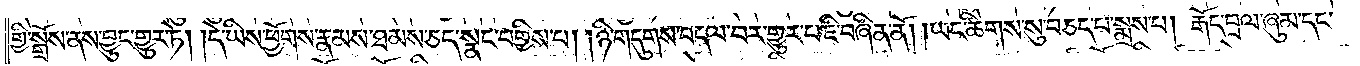གྱི་སྒྲོས་ནས་བྱུང་གྱུར་ཏེ། །དེ་ཡིས་ཕྱོགས་རྣམས་ཐམས་ཅད་སྣང་བགྱིས་པ། །ཉི་གདུགས་བདལ་བར་གྱུར་པ་ཇི་བཞིན་ནོ། །ཡང་ཚིགས་སུ་བཅད་པ་སྨྲས་པ། རྒོད་བྲལ་ཞུམ་དང་
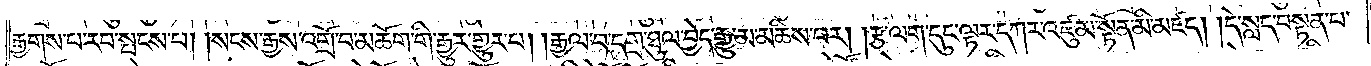རྒྱགས་པ་རབ་སྤངས་པ། །སངས་རྒྱས་འགྲོ་བ་མཆོག་གི་རྒྱུར་གྱུར་པ། །རྒྱལ་བ་དགྲ་ཐུལ་བྱེད་རྒྱུ་མ་མཆིས་པར། །རྩ་ལག་དུང་ལྟར་དཀར་འཛུམ་སྟོན་མི་མཛད། །དེ་སླད་བསྟན་པ་
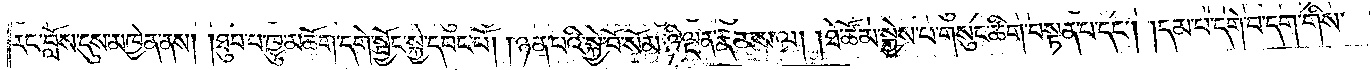རང་བློས་དུས་མཁྱེན་ནས། །ཐུབ་པ་ཁྱུ་མཆོག་དགེ་སྦྱོང་སྐྱེ་དབང་པོ། །ཉན་པའི་སྐྱེ་བོ་སོམ་ཉི་ལྡན་རྣམས་ལ། །ཐེ་ཚོམ་སྐྱེས་པ་གསུང་ཚིག་བསྟན་པ་དང༌། །དམ་པ་དགེ་བ་དག་གིས་
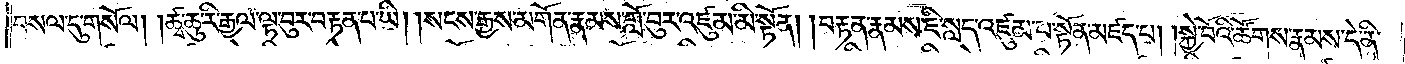བསལ་དུ་གསོལ། །ཚྭ་ཆུ་རི་རྒྱལ་ལྟ་བུར་བརྟན་པ་ཡི། །སངས་རྒྱས་མགོན་རྣམས་གློ་བུར་འཛུམ་མི་སྟོན། །བརྟན་རྣམས་ཇི་སླད་འཛུམ་པ་སྟོན་མཛད་པ། །སྐྱེ་བོའི་ཚོགས་རྣམས་དེ་ནི་
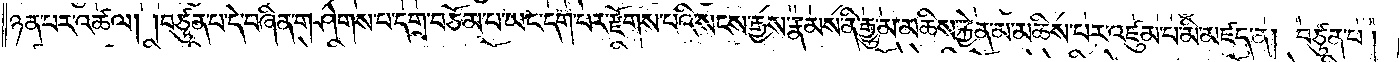ཉན་པར་འཚལ། །བཙུན་པ་དེ་བཞིན་གཤེགས་པ་དགྲ་བཅོམ་པ་ཡང་དག་པར་རྫོགས་པའི་སངས་རྒྱས་རྣམས་ནི་རྒྱུ་མ་མཆིས་རྐྱེན་མ་མཆིས་པར་འཛུམ་པ་མི་མཛད་ན། བཙུན་པ།
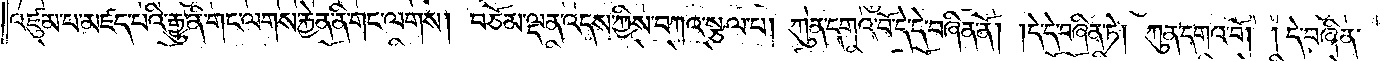འཛུམ་པ་མཛད་པའི་རྒྱུ་ནི་གང་ལགས་རྐྱེན་ནི་གང་ལགས། བཅོམ་ལྡན་འདས་ཀྱིས་བཀའ་སྩལ་པ། ཀུན་དགའ་བོ་དེ་དེ་བཞིན་ནོ། །དེ་དེ་བཞིན་ཏེ། ཀུན་དགའ་བོ།  །དེ་བཞིན་
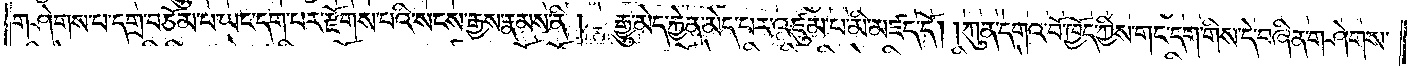གཤེགས་པ་དགྲ་བཅོམ་པ་ཡང་དག་པར་རྫོགས་པའི་སངས་རྒྱས་རྣམས་ནི།  རྒྱུ་མེད་རྐྱེན་མེད་པར་འཛུམ་པ་མི་མཛད་དོ། །ཀུན་དགའ་བོ་ཁྱོད་ཀྱིས་གང་དག་གིས་དེ་བཞིན་གཤེགས་
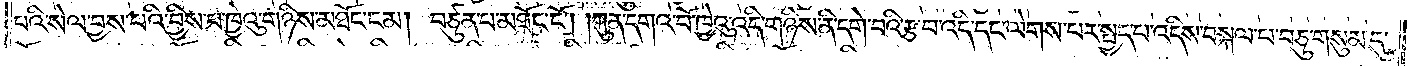པའི་སེལ་བྱས་པའི་བྱིས་པ་ཁྱེའུ་གཉིས་མཐོང་ངམ། བཙུན་པ་མཐོང་ངོ༌། །ཀུན་དགའ་བོ་ཁྱེའུ་འདི་གཉིས་ནི་དགེ་བའི་རྩ་བ་འདི་དང་ལེགས་པར་སྤྱད་པ་འདིས་བསྐལ་པ་བཅུ་གསུམ་དུ་
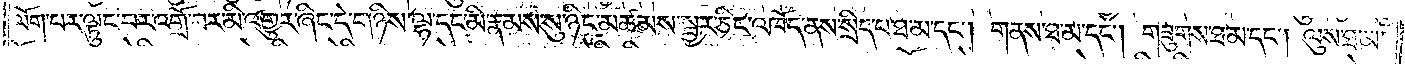ལོག་པར་ལྟུང་བར་འགྲོ་བར་མི་འགྱུར་ཞིང་དེ་གཉིས་ལྷ་དང་མི་རྣམས་སུ་ཉིང་མཚམས་སྦྱར་ཅིང་འཁོད་ནས་སྲིད་པ་ཐ་མ་དང༌། གནས་ཐ་མ་དང༌། གཟུགས་ཐ་མ་དང༌། ལུས་ཐ་མ་
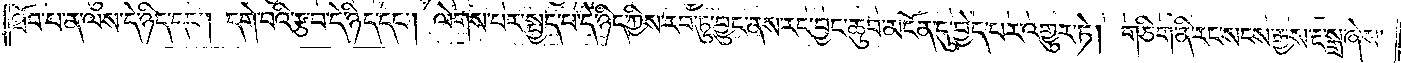ཐོབ་པ་ན་ལས་དེ་ཉིད་དང༌། དགེ་བའི་རྩ་བ་དེ་ཉིད་དང༌། ལེགས་པར་སྤྱད་པ་དེ་ཉིད་ཀྱིས་རབ་ཏུ་བྱུང་ནས་རང་བྱང་ཆུབ་མངོན་དུ་བྱེད་པར་འགྱུར་ཏེ་།གཅིག་ནི་རང་སངས་རྒྱས་རྔ་སྒྲ་ཞེས་
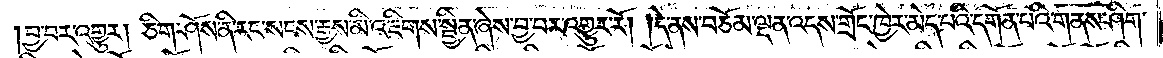བྱ་བར་འགྱུར། ཅིག་ཤོས་ནི་རང་སངས་རྒྱས་མི་འཇིགས་སྦྱིན་ཞེས་བྱ་བར་འགྱུར་རོ། །དེ་ནས་བཅོམ་ལྡན་འདས་གྲོང་ཁྱེར་མེད་པའི་དགོན་པའི་གནས་ཤིག་
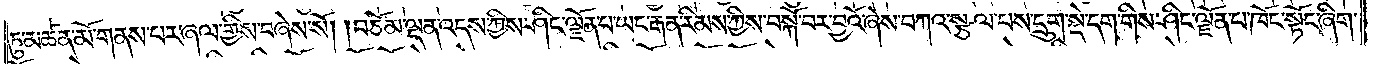ཏུ་མཚན་མོ་གནས་པར་ཞལ་གྱིས་བཞེས་སོ། །བཅོམ་ལྡན་འདས་ཀྱིས་ཤིང་ལྗོན་པ་ཡང་རྒན་རིམས་ཀྱིས་བསྐོ་བར་བྱའོ་ཞེས་བཀའ་སྩལ་པས་དྲུག་སྡེ་དག་གིས་ཤིང་ལྗོན་པ་ཁོང་སྟོང་ཞིག་
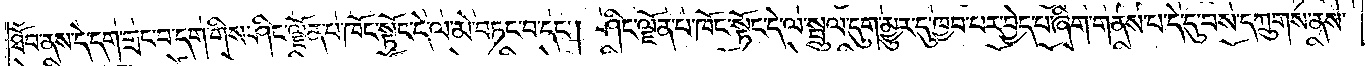ཐོབ་ནས་དེ་དག་གྲང་བ་དག་གིས་ཤིང་ལྗོན་པ་ཁོང་སྟོང་དེ་ལ་མེ་བཏང་བ་དང༌། ཤིང་ལྗོན་པ་ཁོང་སྟོང་དེ་ལ་སྦྲུལ་དུག་མྱུར་དུ་ཁྱབ་པར་བྱེད་པ་ཞིག་གནས་པ་དེ་དུ་བས་དཀྲུགས་ནས་
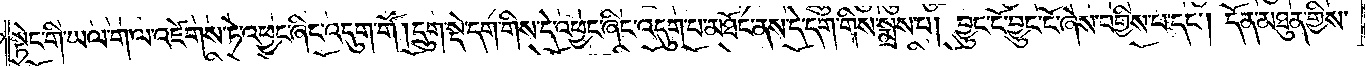སྟེང་གི་ཡལ་ག་ལ་འཛེགས་ཏེ་འཕྱང་ཞིང་འདུག་གོ །དྲུག་སྡེ་དག་གིས་དེ་འཕྱང་ཞིང་འདུག་པ་མཐོང་ནས་དེ་དག་གིས་སྨྲས་པ། བྱུང་ངོ་བྱུང་ངོ་ཞེས་བགྱིས་པ་དང༌། དོན་མཐུན་གྱིས་
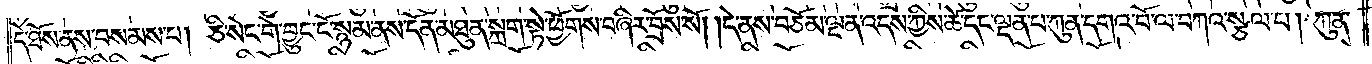དེ་ཐོས་ནས་བསམས་པ། ཅི་སེང་གེ་བྱུང་ངོ་སྙམ་ནས་དོན་མཐུན་སྐྲག་སྟེ་ཕྱོགས་བཞིར་བྲོས་སོ། །དེ་ནས་བཅོམ་ལྡན་འདས་ཀྱིས་ཚེ་དང་ལྡན་པ་ཀུན་དགའ་བོ་ལ་བཀའ་སྩལ་པ། ཀུན་
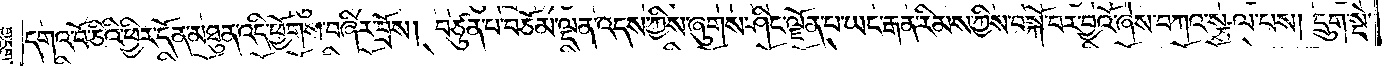དགའ་བོ་ཅིའི་ཕྱིར་དོན་མཐུན་འདི་ཕྱོགས་བཞིར་བྲོས། བཙུན་པ་བཅོམ་ལྡན་འདས་ཀྱིས་ཞུགས་ཤིང་ལྗོན་པ་ཡང་རྒན་རིམས་ཀྱིས་བསྐོ་བར་བྱའོ་ཞེས་བཀའ་སྩལ་པས། དྲུག་སྡེ་
